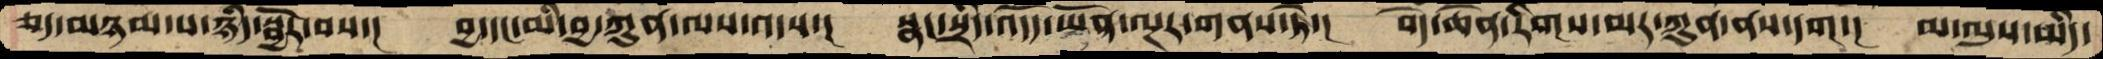ཅད་མཉམ་པ་ཉིད་སྦྱོར་བས་།  བྱ་དང་མི་བྱ་ཀུན་ལས་འདས་།  སྣང་སྲིད་འདོད་ཡོན་ལྔར་གནས་ཏེ་།  བདེ་ཆེན་རིགས་མར་ཀུན་ནས་དག་།  མ་ལུས་ཡིད་
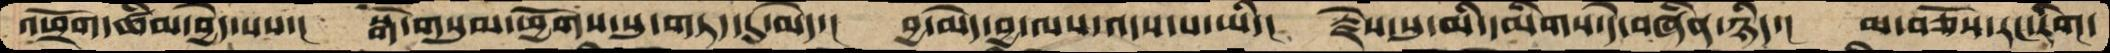འཕྲོག་ཚིམ་བྱེད་པས་།  སྒོ་གསུམ་ཕྱོགས་སུ་གཏད་དུ་མེད་།  བྱ་མེད་བྱ་ལས་འདས་པ་ཡིད་།  རྗེས་སུ་མི་དམིགས་དེ་བཞིན་ཉིད་།   མ་བཅོས་རང་རིག་
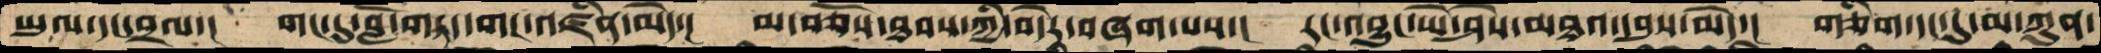ཡུལ་དང་བྲལ་།།   གང་དུ་བློ་གཏད་གང་འཛིན་མེད་།  མ་བཅོས་ཐབས་ཀྱི་བདེར་བཞག་པས་།  རང་འབྱུང་ཡེ་ཤེས་མཐའ་དབུས་མེད་།  གཅིག་དང་དུ་མ་ཀུན་
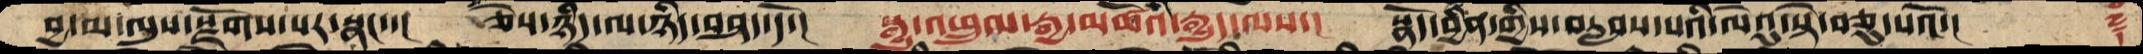བྱ་མ་ལུས་སྫོགས་པར་སྣང་་།  ཅེས་ཉིད་ལ་ཉིད་བཤད་དོ་།  སྒྱུ་འཕྲུལ་རྒྱ་མཚོའི་རྒྱུད་ལས་།  སྣོད་བྱིན་གྱིས་བརླབས་པའི་ལེའུ་སྟེ་བཅུ་པའོ་།     ࿑ཾ
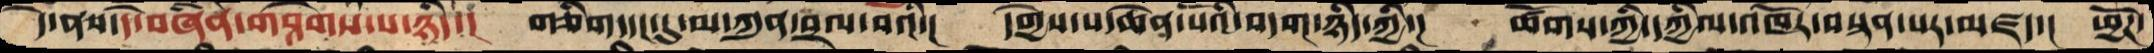དེ་ནས་དེ་བཞིན་གཤེགས་པ་ཉིད་།  གཅིག་དང་དུ་མ་ཀུན་བྲལ་བའི་།  དགྱེས་པ་ཆེན་པོའི་བདག་ཉིད་ཀྱི་།  ཚོགས་ཀྱི་དཀྱིལ་འཁོར་བསྟན་པར་མཛད་།  ཕྱོཌ་
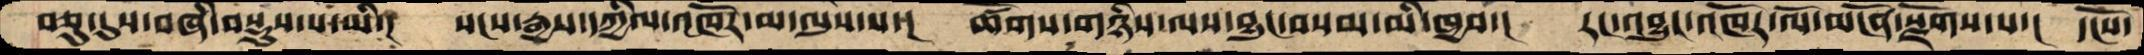བཅུ་དུས་བཞི་བསྡུས་པ་ཡི་།  སངས་རྒྱས་དཀྱིལ་འཁོར་མ་ལུས་པ་།  ཚོགས་གཉིས་ལས་བྱུང་བསམ་མི་ཁྱབ་།  རང་འབྱུང་འཁོར་ལོ་མངོན་སྫོགས་པ་།  དངོས་
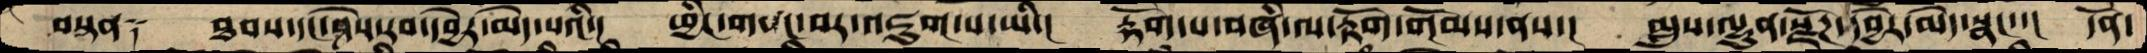བསྟན༑  ཐབས་དང་ཤེས་རབ་དབྱེར་མེད་པའི་།  ཕྱིང་གསང་བར་འཇུག་པ་ཡི་།  རྟོག་པ་བཞི་ལ་རྟོག་གོམས་ནས་།   མླུས་ལྷུན་སྫོཌ་དབྱེར་མེད་སྣང་་།  དོན་
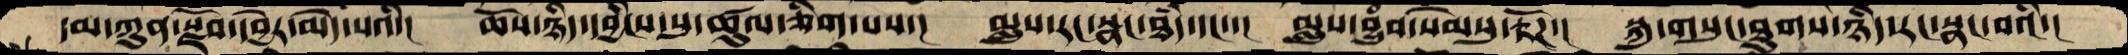དམ་ཀུན་སྫོབ་དབྱེར་མེད་པའི་།  ཆོས་ཉིད་དབྱིངས་སུ་ཚུལ་ཅིག་པས་།  མླུས་རང་སྣང་ཐདཾ་དང་་།  མླུས་བྱུཾབ་སེམསུ་རྟོཌ་།  སྐུ་གསུང་ཐུགས་ཉིད་རང་སྣང་བའི་།
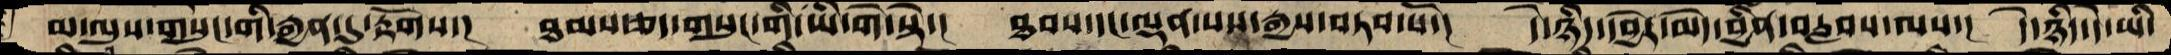མ་ལུས་གསུང་གི་རྒྱན་དུ་རྟོགས་།  ཐམས་ཅད་གསུང་གི་ཡི་གེ་སྟེ་།  ཐབས་དང་ལྡན་པས་རྒྱས་བཏབ་པོ་།  དེ་ཉིད་དབྱེར་མེད་བྱིན་བརླབས་ལས་།  དེ་ཉིད་དེ་ཡི་
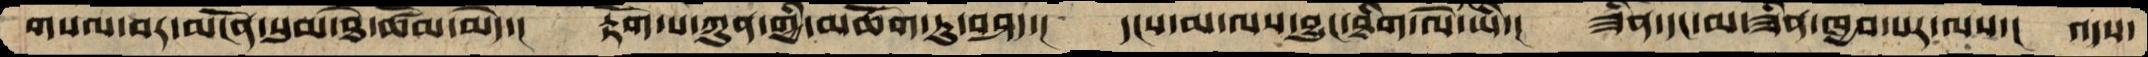གསལ་བར་མངོན་སུམ་ཐེ་ཚོམ་མེད་།  རྟོག་པ་ཀུན་གྱི་མཆོག་ཏུ་བཤད་།  དངས་མ་ལས་བྱུང་ཐིག་ལེ་ཡི་།  ཟིན་དང་མ་ཟིན་ཁྱབ་པར་ལས་།  འདས་
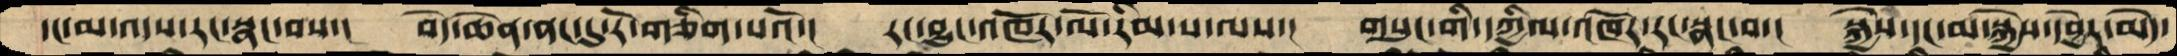དང་མ་འདས་རང་སྣང་བས་།  བདེ་ཆེན་ནང་དུ་རོ་གཅིག་པའོ་།  རང་བྱུང་འཁོར་ལོ་རིམ་པ་ལས་།  གསུང་གི་དཀྱིལ་འཁོར་རང་སྣང་བ་།  སྐྱེས་དང་མ་སྐྱེས་དབྱེར་མེད་
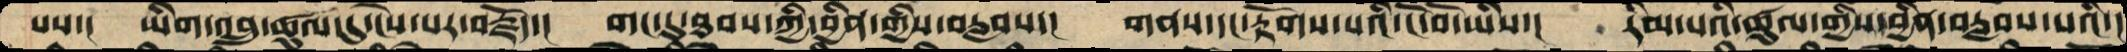པས་།  ཡིག་འབྲུ་ཚུལ་དུ་ངེས་པར་བརྗོད་།  གང་དུ་ཐབས་ཀྱི་བྱིན་གྱིས་བརླབས་།  གནས་དང་རྟོགས་པའི་ངོ་བོ་ཡིས་།  རིམ་པའི་ཚུལ་གྱིས་བྱིན་བརླབས་པའི་།
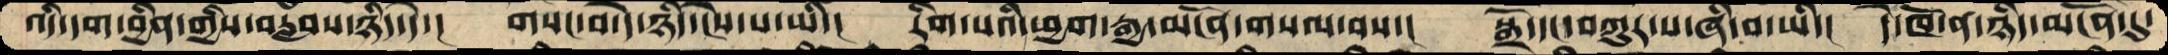འདི་དག་བྱིན་གྱིས་བརླབས་ཉིད་དེ་།  གསང་བ་དེ་ཉིད་ངེས་པ་ཡི་།  རིག་པའི་ཕྱག་རྒྱ་མངོན་གསལ་བས་།  སྒྲོ་དང་བཀུར་པ་ཞི་བ་ཡི་།  དེ་ཁོ་ན་ཉིད་མངོན་དུ་
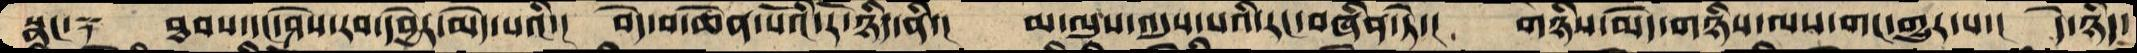སྣང་༑  ཐབས་དང་ཤེས་རབ་དབྱེར་མེད་པའི་།  བདེ་བ་ཆེན་པོའི་རོ་ཉིད་ནི་།  མ་ལུས་འདུས་པའི་རང་བཞིན་ཏེ་།  གཉིས་མེད་གཉིས་ལས་གང་གྱུར་པ་།  དེ་ཉིད་
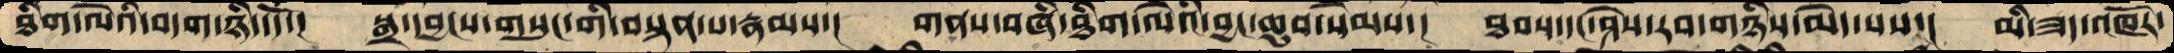ཐིག་ལེའི་བདག་ཉིད་དོ་།  སྒྲ་དབྱངས་གསུང་གི་བསྟན་པ་རྣམས་།  གནས་བཞི་ཐིག་ལེའི་བྱང་ཆུབ་སེམས་།  ཐབས་དང་ཤེས་རབ་གཉིས་མེད་པས་།  མི་ཟད་འཁོར་
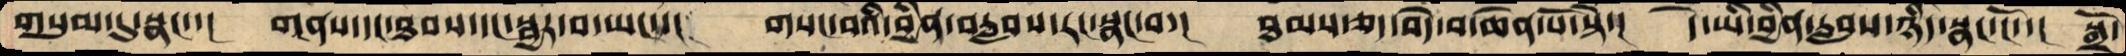གསུམ་དུ་སྣང་་།  གནས་དང་ཐབས་དང་སྦྱར་བ་ཡང་་།  གསང་བའི་བྱིན་བརླབས་རང་སྣང་བ་།  ཐམས་ཅད་བདེ་བ་ཆེན་པོ་སྟེ་།  དེ་ཡི་བྱིན་རླབས་ཉིད་སྣང་ངོ་་།  སྒྲོ་
